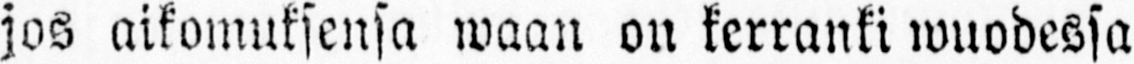jos aikomuksensa waan on kerranki wuodessa
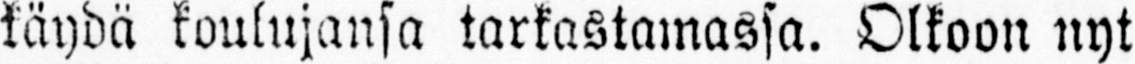käydä koulujansa tarkastamassa. Olkoon nyt
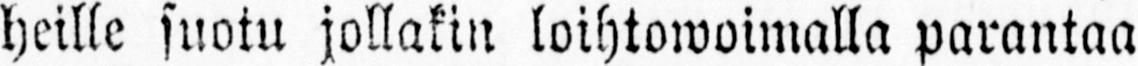heille suotu jollakin loihtowoimalla parantaa
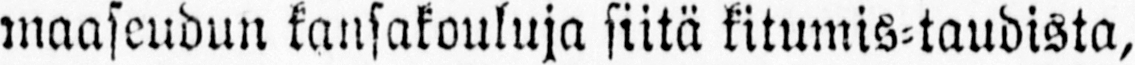maaseudun kansakouluja siitä kitumis-taudista,
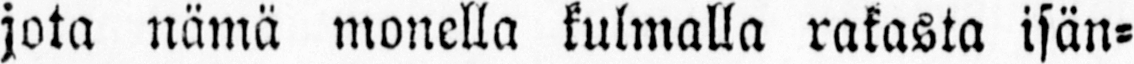jota nämä monella kulmalla rakasta isän-
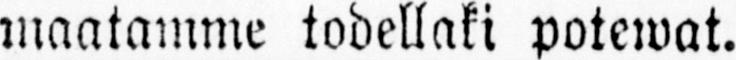maatamme todellaki potewat.
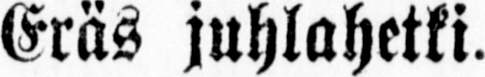Eräs juhlahetki.
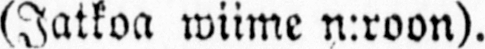(Jatkoa wiime n:roon).
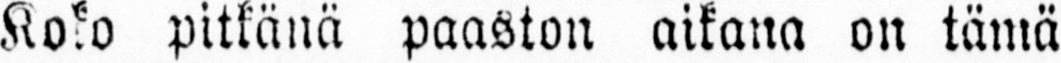Koko pitkänä paaston aikana on tämä
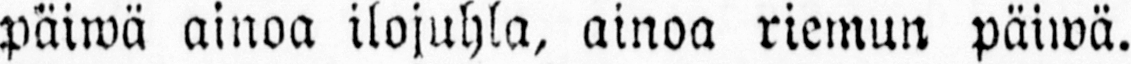päiwä ainoa ilojuhla, ainoa riemun päiwä.
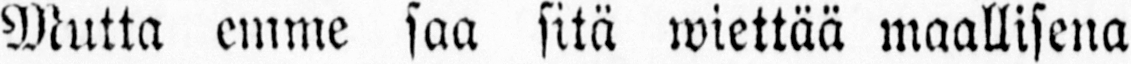Mutta emme saa sitä wiettää maallisena
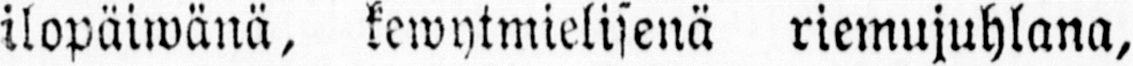ilopäiwänä, kewytmielisenä riemujuhlana,
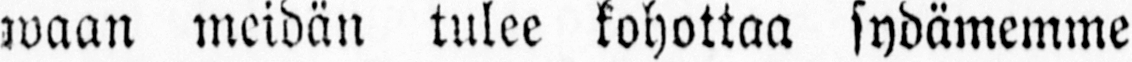waan meidän tulee kohottaa sydämemme
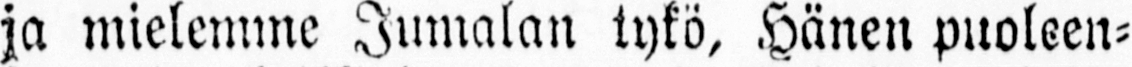ja mielemme Jumalan tykö. Hänen puoleen-
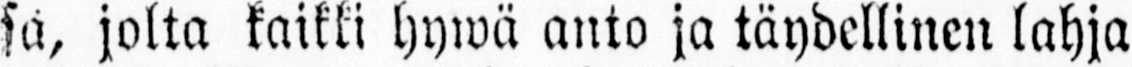sa, jolta kaikki hywä anto ja täydellinen lahja
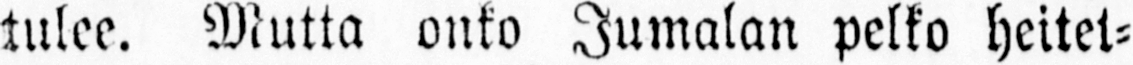tulee. Mutta onko Jumalan pelko heitet-
